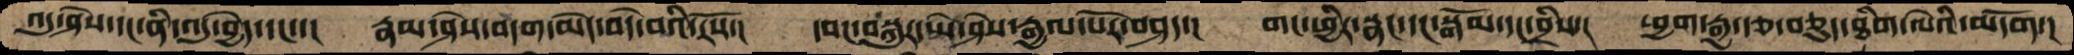འདུ་ཤེས་དང་ནི་འདུ་བྱེད་དང་་།  རྣམ་ཤེས་བདག་མེད་བདེ་བའི་རོས་།  དབང་བསྐུར་ཡེ་ཤེས་རྒྱལ་པོར་བཤད་།  གང་ཕྱིར་སྣང་དང་སྒོམ་དང་བྲིས་།  ཕྱག་རྒྱ་རྩ་བཅུད་ཐིག་ལེའི་མདོག་།
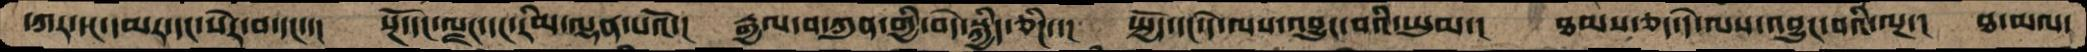དཀར་དང་དམར་དང་སེར་བ་དང་་།  སྔོ་དང་ལྗང་དང་རིམ་ལྡན་པའོ་།  རྒྱལ་བ་ཀུན་གྱི་བདེ་སྐྱིད་ཅིང་་།  སྤྱོད་དང་དེ་ལས་འབྱུང་བའི་ཡུལ་།  ཐམས་ཅད་དེ་ལས་འབྱུང་བའི་ལྔ་།  ཐ་མལ་
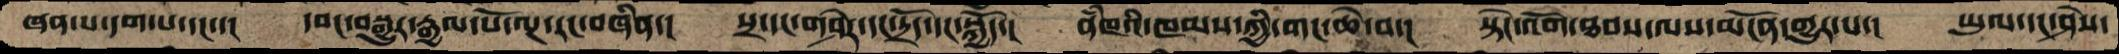ཞན་པ་དག་པ་དང་་།  དབང་བསྒྱུར་རྒྱལ་པོ་ལྔ་རང་བཞིན་།  སྲ་དང་གཤེར་དང་དྲོད་དང་སྐྱོད་།  ནཾཁའི་ཁམས་ཀྱི་གང་ཆེ་བ་།   སྟེང་འོག་ཐབས་ལས་མངོན་གྱུར་པ་།  ཡུལ་དང་ཤེས་
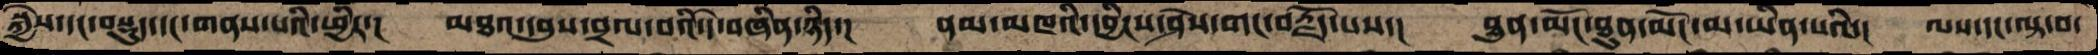སྐྱེས་དང་བསྡུད་དང་གནས་པའི་ཕྱིར་།  མཐའ་དབུས་བྲལ་བའི་དེ་བཞིན་ཉིད་།  ནམ་མཁའི་དབྱིངས་ཤེས་གང་བརྗོད་པས་།  ཐུན་མོང་ཐུན་མོང་མ་ཡིན་པའི་།  ལས་དང་ལྟ་བ་
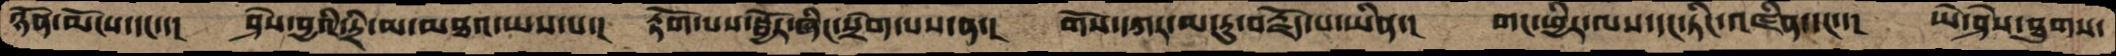ཉོན་མོངས་དང་་།  ཤེས་བྱའི་དྲི་མ་མཐའ་ཡས་པ་།  རྟོག་པས་སྦྱོར་ཞིང་སྲེག་པས་ན་།  གོས་དཀར་མ་རུ་བརྗོད་པ་ཡིན་།  གང་ཕྱིར་ལས་དང་ཏིང་འཛིན་དང་་།  ཡེ་ཤེས་ཐུགས་
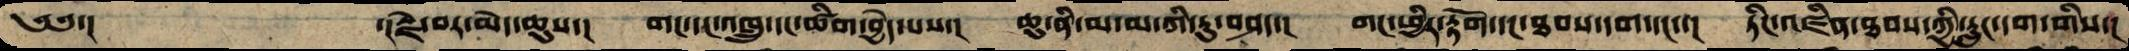༄༅་།     ་།རྗེ་བར་མེད་ཆུས་།  གང་དང་འཁྲུ་དང་ཚིག་བྱེད་པས་།  ཆུ་ནི་མ་མ་ཀི་རུ་བཤད་།  གང་ཕྱིར་རྟོག་དང་ཐབས་དག་དང་་།  ཏིང་འཛིན་ཐབས་ཀྱི་རླུང་དག་གིས་།
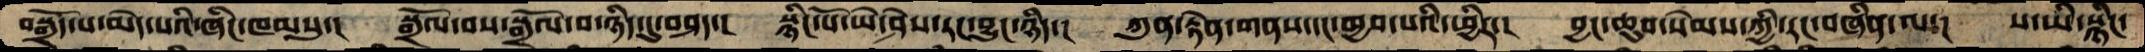བསྒྲོད་པ་མེད་པའི་ཞིང་ཁམསུ་།  སྒྲོལ་བས་སྒྲོལ་བ་ཉིད་དུ་བཤད་།  སྙིང་པོ་ཡེ་ཤེས་རང་བྱུང་ཉིད་།  ཀུན་རྟེན་གནས་དང་ཁྱབ་པའི་ཕྱིར་།  བྱང་ཆུབ་སེམས་ཀྱི་རང་བཞིན་ལ་།  ས་ཡི་སྙིང་
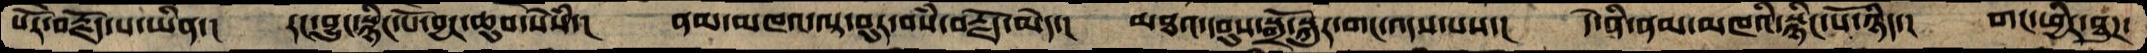སོར་བརྗོད་པ་ཡིན་།   རང་བྱུང་སྙིང་པོ་བྱང་ཆུབ་སེཾས་།  ནམ་མཁའ་ལྟ་བུར་བསཾ་བརྗོད་མེད་།  མཐའ་དབུས་སྒྲོ་སྐུར་གང་འདས་པས་།  དེ་ནི་ནམ་མཁའི་སྙིང་པོ་ཉིད་།  གང་ཕྱིར་ཐུཌ་
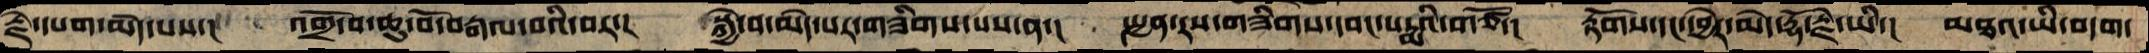རྗེ་དཔག་མེད་པས་།  འགྲོ་བ་ཆུ་བོ་བརྒལ་བའི་བར་།  སྐྱེ་བ་མེད་པར་གཟིགས་པས་ན་།  སྤྱན་རས་གཟིགས་དབང་པདྨའི་གཙོ་།  རྟོགས་དང་དབྱེར་མེད་རྡོ་རྗེ་ཡི་།  མཐའ་ཡི་བདག་
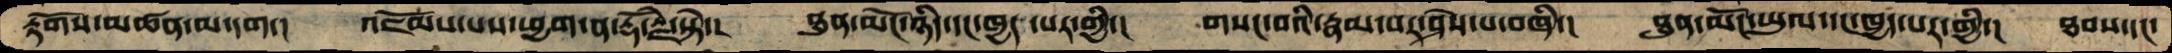རྟོགས་མཚན་མ་དག་།  འཇོམས་པས་ཕྱག་ན་རྡོ་རྗེ་སྟེ་།  ཐུན་མོང་ཉིད་དང་ཁྱད་པར་གྱི་།  གསང་བའི་རྣམ་པར་ཤེས་པ་བཞི་།  ཐུན་མོང་ཡུལ་དང་ཁྱད་པར་གྱི་།  ཐབས་དང་
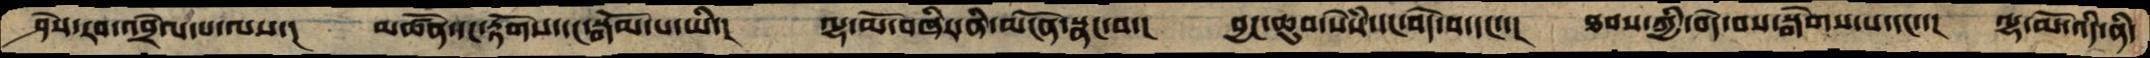ཤེས་རབ་འབྲེལ་པ་ལས་།  མཚོན་དང་རྟོགས་དང་སྒོམ་པ་ཡི་།  ལྷ་མོ་བཞིར་ནི་མངོན་སྣང་བ་།  བྱང་ཆུབ་སེཾས་དང་བདེ་བ་དང་་།  ཐབས་ཀྱི་བདེ་བས་སྒེགས་པ་དང་་།  ལྷ་མོ་འདི་ནི་
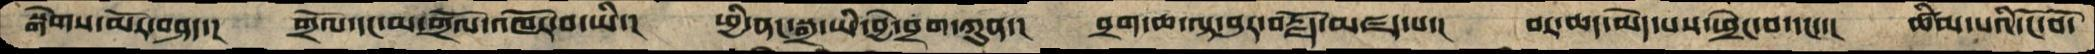སྒེགས་མོར་བཤད་།  གྲོལ་དང་མ་གྲོལ་འཁོར་བ་ཡི་།  ཕྱི་ནང་སྒྲ་ཡི་བྱེ་བྲག་ཀུན་།  བྲག་ཆ་ལྟ་བུར་བརྗོད་མཛད་པ་།  བར་ཆད་མེད་པས་ཕྲེང་བ་དང་་།  ཚིམ་པའི་ངོ་བོ་
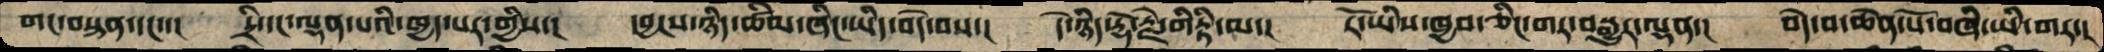གང་བསྟན་དང་་།  དྲི་དང་ལྡན་པའི་ཁྱད་པར་གྱིས་།  དབྱངས་ཉིད་ཚིམ་ཞིང་ཡིད་བདེ་བས་།  དེ་ཉིད་རྡོ་རྗེ་གིརྟི་མ་།  རོ་ཡིས་ཁྱབ་ཅིང་གར་བསྒྱུར་ལྡན་།  བདེ་བ་ཆེན་པོ་བཞི་ཡི་གར་།
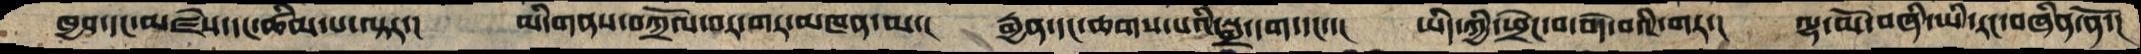ཁྱབ་དང་མཛེས་དང་ཚིམ་པ་ལྟར་།  མི་གནས་བཀྲོལ་བར་གར་མཁན་མ་།  རྒྱན་དང་ཆགས་པའི་སྒྲ་དག་དང་་།  ཡིད་ཀྱི་ཕྲེང་བ་བདེ་བའི་གར་།  ལྷ་མོ་བཞི་ཡི་རང་བཞིན་ནོ་།
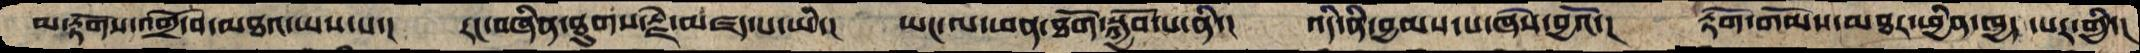མ་རྟོགས་འགྲོ་བ་མཐའ་ཡས་པ་།  རང་བཞིན་ཐུགས་རྗེ་མཛད་པ་ཡི་།  ཡང་ལ་ཕན་ཐོག་སྐྱོབ་པ་ནི་།  འདི་ནི་བྱམས་པ་ཞེས་བྱའོ་།  རྟོག་གོམས་མཐར་ཕྱིན་ཁྱད ་པར་གྱི་།
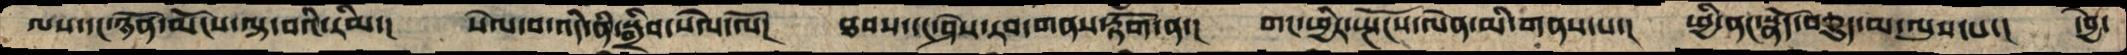ལས་དང་ཉོན་མོངས་ལྟ་བའི་རིམ་།  སེལ་བ་འདི་ནི་སྒྲིབ་སེལ་ལོ་།  ཐབས་དང་ཤེས་རབ་གནས་རྟོག་ན་།  གང་ཕྱིར་སྤོངས་ལེན་མི་གནས་པ་།  ཕྱི་ནང་སྣོད་བཅུད་མ་ལུས་པ་།  དབྱེ་
